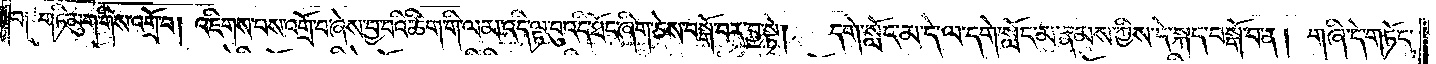བ༑ གཏི་མུག་གིས་འགྲོ་བ། འཇིགས་པས་འགྲོ་བ་ཞེས་བྱ་བའི་ཚིག་གི་ལམ་འདི་ལྟ་བུ་འདི་ཐོང་ཞིག་ཅེས་བསྒོ་བར་བྱ་སྟེ།   དགེ་སློང་མ་དེ་ལ་དགེ་སློང་མ་རྣམས་ཀྱིས་དེ་སྐད་བསྒོ་བ་ན། གཞི་དེ་གཏོང་
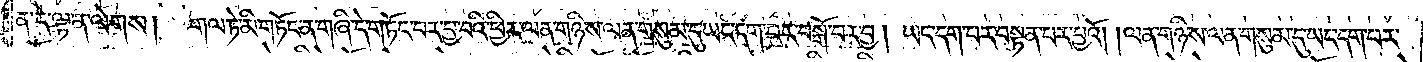ན་དེ་ལྟ་ན་ལེགས། གལ་ཏེ་མི་གཏོང་ན་གཞི་དེ་གཏོང་བར་བྱ་བའི་ཕྱིར་ལན་གཉིས་ལན་གསུམ་དུ་ཡང་དག་པར་བསྒོ་བར་བྱ། ཡང་དག་པར་བསྟན་པར་བྱའོ། །ལན་གཉིས་ལན་གསུམ་དུ་ཡང་དག་པར་
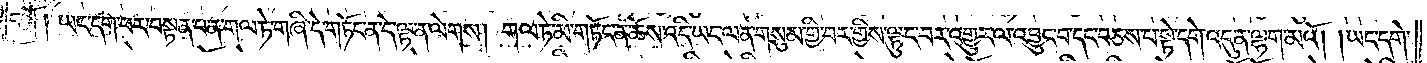བསྒོ། ཡང་དག་པར་བསྟན་པ་ན་གལ་ཏེ་གཞི་དེ་གཏོང་ན་དེ་ལྟ་ན་ལེགས། གལ་ཏེ་མི་གཏོང་ན་ཆོས་འདི་ཡང་ལན་གསུམ་གྱི་བར་གྱི་ལྟུང་བར་འགྱུར་ལ་འབྱུང་བ་དང་བཅས་པ་སྟེ་དགེ་འདུན་ལྷག་མའོ། །ཡང་དགེ་
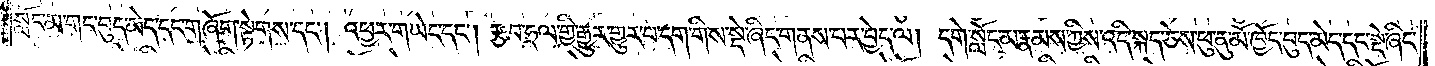སློང་མ་གང་བུད་མེད་དང་གཞོག་སྟེགས་དང༌། འཕྱར་གཡེང་དང༌། རྩབ་ཧྲལ་གྱི་རྒྱུར་གྱུར་པ་དག་གིས་སྡེ་ཞིང་གནས་པར་བྱེད་ལ། དགེ་སློང་མ་རྣམས་ཀྱིས་འདི་སྐད་ཅེས་ཕུ་ནུ་མོ་ཁྱོད་བུད་མེད་དང་སྡེ་ཞིང་
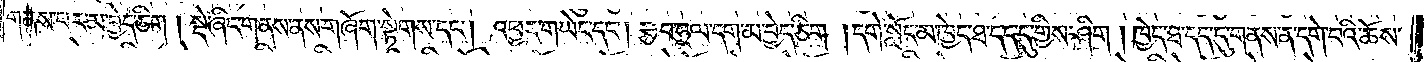གནས་པར་མ་བྱེད་ཅིག། སྡེ་ཞིང་གནས་ནས་གཞོག་སྟེགས་དང༌། འཕྱར་གཡེང་དང༌། རྩབ་ཧྲལ་དག་མ་བྱེད་ཅིག །དགེ་སློང་མ་ཁྱེད་ཐ་དད་དུ་གྱིས་ཤིག །ཁྱེད་ཐ་དད་དུ་གནས་ན་དགེ་བའི་ཆོས་
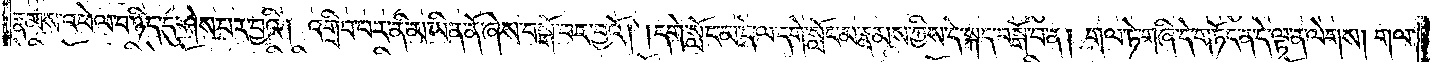རྣམས་འཕེལ་བ་ཉིད་དུ་ཤེས་པར་བྱའི། འགྲིབ་པར་ནི་མ་ཡིན་ནོ་ཞེས་བསྒོ་བར་བྱའོ། །དགེ་སློང་མ་དེ་ལ་དགེ་སློང་མ་རྣམས་ཀྱིས་དེ་སྐད་བསྒོ་བ་ན། གལ་ཏེ་གཞི་དེ་གཏོང་ན་དེ་ལྟ་ན་ལེགས། གལ་
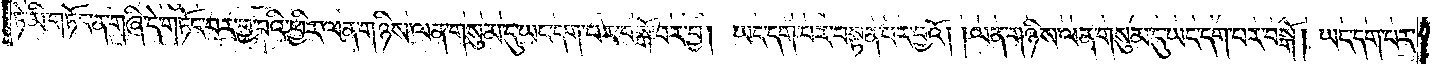ཏེ་མི་གཏོང་ན་གཞི་དེ་གཏོང་བར་བྱ་བའི་ཕྱིར་ལན་གཉིས་ལན་གསུམ་དུ་ཡང་དག་པར་བསྒོ་བར་བྱ། ཡང་དག་པར་བསྟན་པར་བྱའོ། །ལན་གཉིས་ལན་གསུམ་དུ་ཡང་དག་པར་བསྒོ། ཡང་དག་པར་
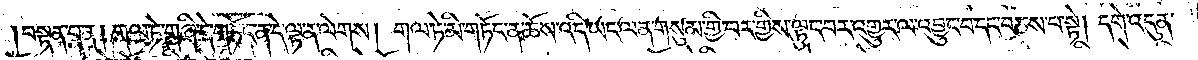བསྟན་པ་ན། གལ་ཏེ་གཞི་དེ་གཏོང་ན་དེ་ལྟ་ན་ལེགས། གལ་ཏེ་མི་གཏོང་ན་ཆོས་འདི་ཡང་ལན་གསུམ་གྱི་བར་གྱིས་ལྟུང་བར་འགྱུར་ལ་འབྱུང་བ་དང་བཅས་པ་སྟེ། དགེ་འདུན་
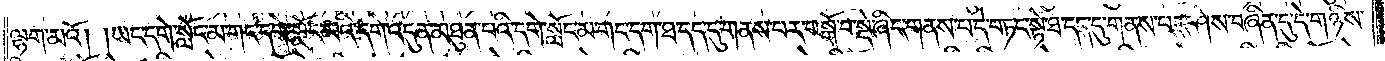ལྷག་མའོ། །ཡང་དགེ་སློང་མ་གང་དགེ་སློང་མའི་དགེ་འདུན་མཐུན་པའི་དགེ་སློང་མ་གང་དག་ཐ་དད་དུ་གནས་པར་བསྒོ་བ་སྡེ་ཞིང་གནས་པ་དེ་བཏང་སྟེ་ཐ་དད་དུ་གནས་པར་ཤེས་བཞིན་དུ་དེ་གཉིས་
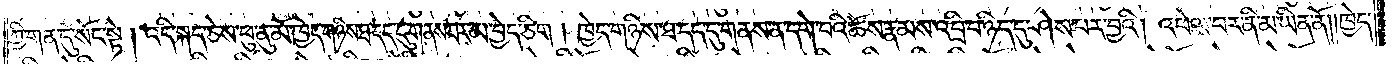ཀྱི་གན་དུ་སོང་སྟེ། འདི་སྐད་ཅེས་ཕུ་ནུ་མོ་ཁྱེད་གཉིས་ཐ་དད་དུ་གནས་པར་མ་བྱེད་ཅིག ། ཁྱེད་གཉིས་ཐ་དད་དུ་གནས་ན་དགེ་བའི་ཆོས་རྣམས་འབྲི་བ་ཉིད་དུ་ཤེས་པར་བྱའི། འཕེལ་བར་ནི་མ་ཡིན་ནོ། །ཁྱེད་
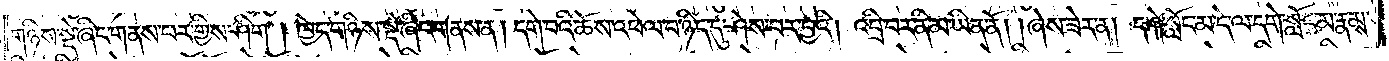གཉིས་སྡེ་ཞིང་གནས་པར་གྱིས་ཤིག །ཁྱེད་གཉིས་སྡེ་ཞིང་གནས་ན། དགེ་བའི་ཆོས་འཕེལ་བ་ཉིད་དུ་ཤེས་པར་བྱའི། འབྲི་བར་ནི་མ་ཡིན་ནོ། །ཞེས་ཟེར་ན། དགེ་སློང་མ་དེ་ལ་དགེ་སློང་མ་རྣམས་
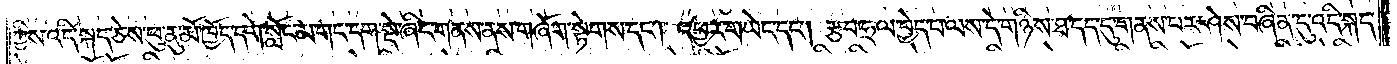ཀྱིས་འདི་སྐད་ཅེས་ཕུ་ནུ་མོ་ཁྱོད་དགེ་སློང་མ་གང་དག་སྡེ་ཞིང་གནས་ནས་གཞོག་སྟེགས་དང༌། འཕྱར་གཡེང་དང༌། རྩབ་ཧྲལ་བྱེད་པ་ལས་དེ་གཉིས་ཐ་དད་དུ་གནས་པར་ཤེས་བཞིན་དུ་འདི་སྐད་
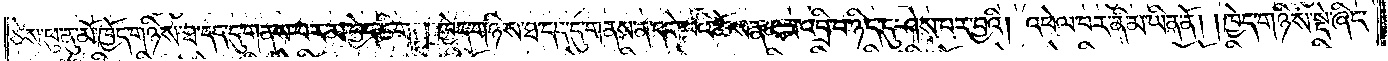ཅེས་ཕུ་ནུ་མོ་ཁྱོད་གཉིས་ཐ་དད་དུ་གནས་པར་མ་བྱེད་ཅིག །ཁྱེད་གཉིས་ཐ་དད་དུ་གནས་ན་དགེ་བའི་ཆོས་རྣམས་འབྲི་བ་ཉིད་དུ་ཤེས་པར་བྱའི། འཕེལ་བར་ནི་མ་ཡིན་ནོ། །ཁྱེད་གཉིས་སྡེ་ཞིང་
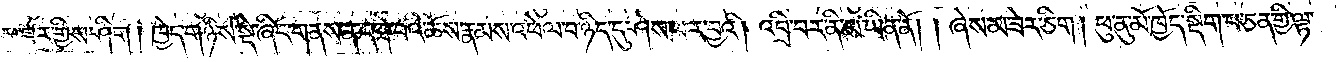གནས་པར་གྱིས་ཤིག། ཁྱེད་གཉིས་སྡེ་ཞིང་གནས་ན་དགེ་བའི་ཆོས་རྣམས་འཕེལ་བ་ཉིད་དུ་ཤེས་པར་བྱའི། འབྲི་བར་ནི་མ་ཡིན་ནོ། །ཞེས་མ་ཟེར་ཅིག། ཕུ་ནུ་མོ་ཁྱོད་སྡིག་པ་ཅན་གྱི་ལྟ་
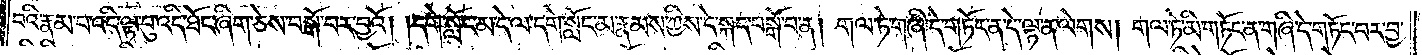བའི་རྣམ་པ་འདི་ལྟ་བུ་འདི་ཐོང་ཞིག་ཅེས་བསྒོ་བར་བྱའོ། །དགེ་སློང་མ་དེ་ལ་དགེ་སློང་མ་རྣམས་ཀྱིས་དེ་སྐད་བསྒོ་བ་ན། གལ་ཏེ་གཞི་དེ་གཏོང་ན་དེ་ལྟ་ན་ལེགས། གལ་ཏེ་མི་གཏོང་ན་གཞི་དེ་གཏོང་བར་བྱ་
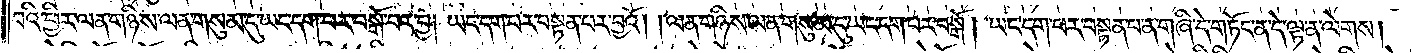བའི་ཕྱིར་ལན་གཉིས་ལན་གསུམ་དུ་ཡང་དག་པར་བསྒོ་བར་བྱ། ཡང་དག་པར་བསྟན་པར་བྱའོ། །ལན་གཉིས་ལན་གསུམ་དུ་ཡང་དག་པར་བསྒོ། ཡང་དག་པར་བསྟན་པ་ན་གཞི་དེ་གཏོང་ན་དེ་ལྟ་ན་ལེགས།
